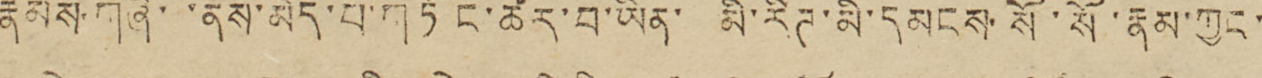རྣམས་གཞི་་ནས་མེད་པ་གཏོང་ཚར་བ་ཡིན་ མི་རིཊ་མི་དམངས་སོ་སོ་རྣམ་ཀྱང་
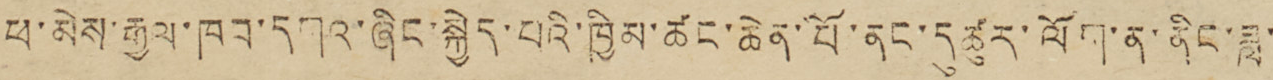ཕ་མེས་རྒྱལ་ཁབ་དགའ་ཞིང་སྐྱེད་པའི་ཁྱིམ་ཚང་ཆེན་པོ་ནང་དུ ཚུར་ལོག་ན་ནིང་ཟླ་
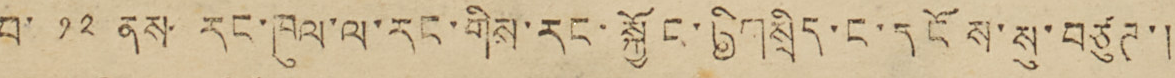བ་ ༡༢ ནས་རང་ཁུལ་ལ་རང་གིས་རང་སྐྱོང་ཞིག་སྲིདང་དངོས་སུ་བཙུཊ་།
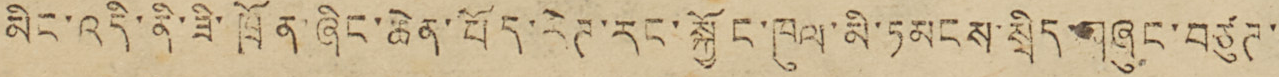མིང་འདི་ནི་ཟི་ཁྲོན་ཞིང་ཆེན་བོད་རིཊ་རང་སྐྱོང་ཁུལ་མི་ཏམངས་སྲིད་གཞུང་བཙུཊ་
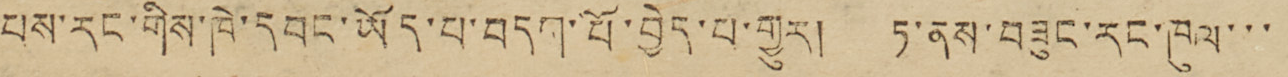པས་རང་གིས་ཁེ་དབང་ཡོད་པ་བདག་པོ་བྱེད་པ་གྱུར། ཏ་ནས་བཟུང་རང་ཁུལ་་་
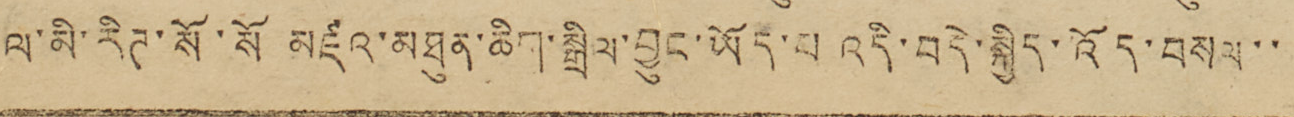ལ་མི་རིཊ་སོ་སོ མཛའ་མཐུན་ཆིག་སྒྲིལ་བྱུང་ཡོད་པ འདི་བདེ་སྐྱིད་འོད་བསལ་་
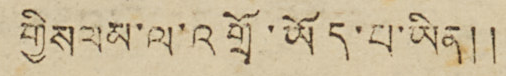གྱིསལམ་ལ་འགྲོ་ཡོད་པ་ཡིན༎
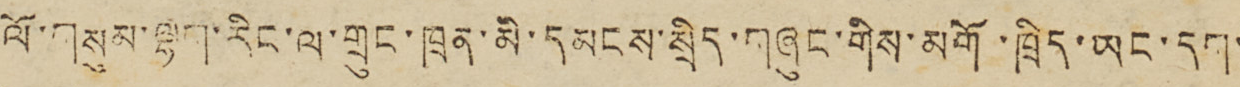ལོ་གསུམ་ལྷག་རིང་ལ་གྲུང་ཁྲན་མི་དམངས་སྲིད་གཞུང་གིས་མགོ་ཁྲིད་ཡང་དག་
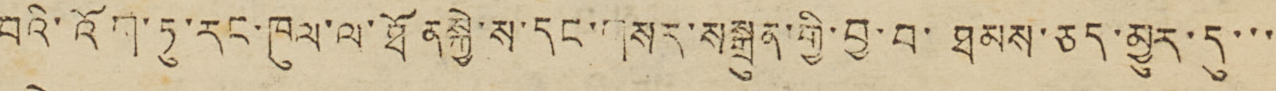བའི་འོག་ཏུ་རང་ཁུལ་ལ་ཐོནསྐྱེ་ས་དང་གསར་སསྒྲུན་གྱི་བྱ་བ་ཐམས་ཅད་མྱུར་དུ་་་
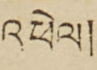འཕེལ།
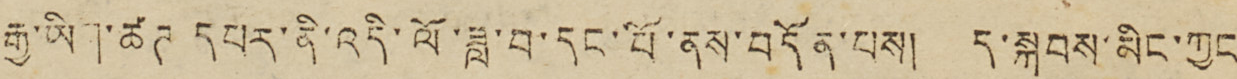རྒྱུ་ཡིག་ཚཊ དཔར་ནི་འདི་ལོ་ཟླ་བ་དང་པོ་ནས་བདོན་པས། ད་སྐབས་མིང་ཀྱང
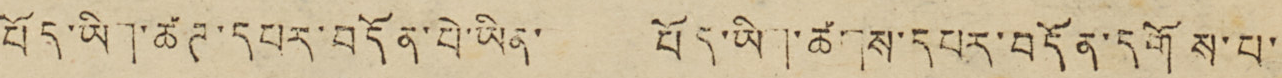བོད་ཡིག་ཚཊ་དཔར་བདོན་པེ་ཡིན་ བོད་ཡིག་ཚགས་དཔར་བདོན་དགོས་པ་
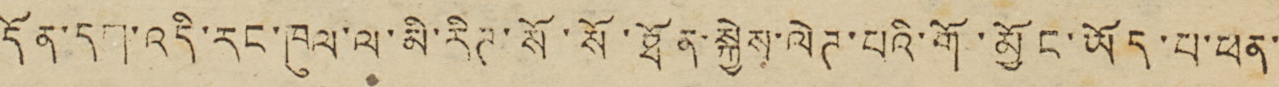དོན་དག་འདི་རང་ཁུལ་ལ་མི་རིཊ་སོ་སོ་ཐོན་སྐྱེས་ལེཊ་པའི་གོ་མྱོང་ཡོད་པ་ཕན་
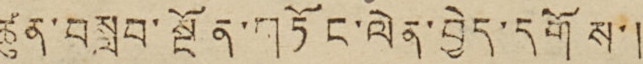ཚུན་བསླབ་སྔོན་གཏོང་ལེན་བྱེད་དགོས་།
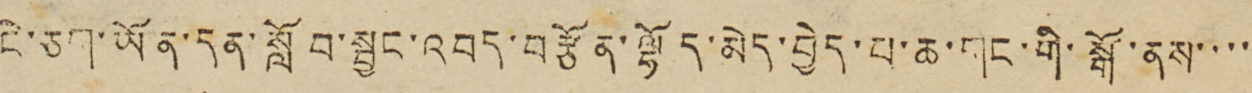ངེ་ཅག་ཡོན་དན་སློབ་སྦྱང་འབད་བརྩོན་ལྷོད་མེད་བྱེད་པ་ཆ་གང་གི་སྒོ་ནས་་་་
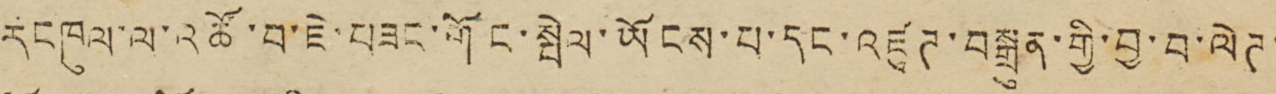རངཁུལ་ལ་འཚོ་བ་ཇེ་བཟང་གོང་སྤེལ་ཡོངས་པ་དང་འཛུཊ་བསྒྲུན་གྱི་བྱ་བ་ལེཊ་
